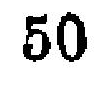50
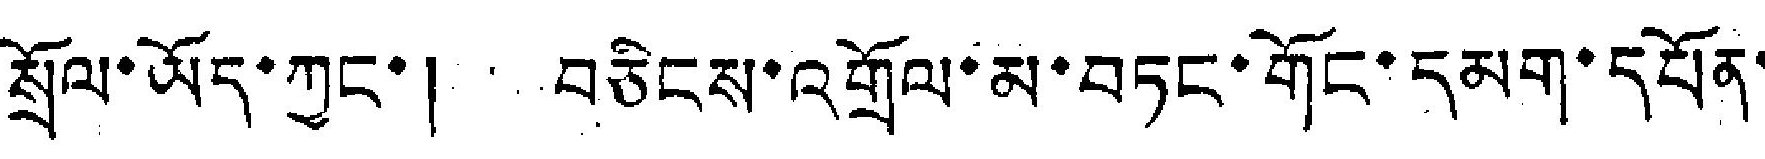སྲོལ་ཡོད་ཀྱང་། བཅིངས་འགྲོལ་མ་བཏང་གོང་དམག་དཔོན་
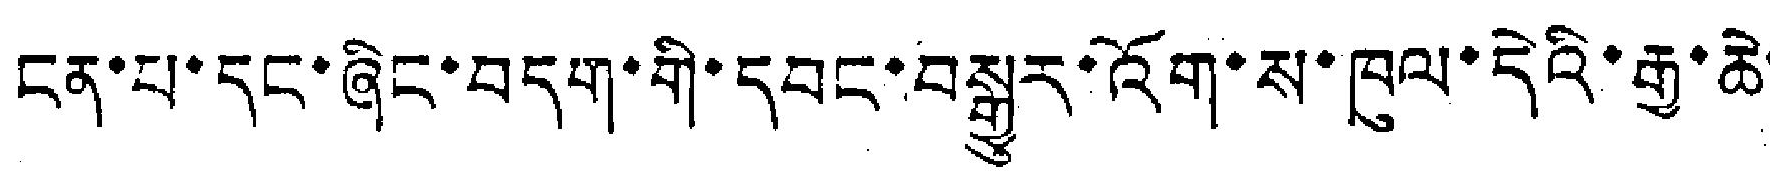ངན་པ་དང་ཞིང་བདག་གི་དབང་བསྒྱུར་འོག་ས་ཁུལ་དེའི་རྒྱ་ཆེ་
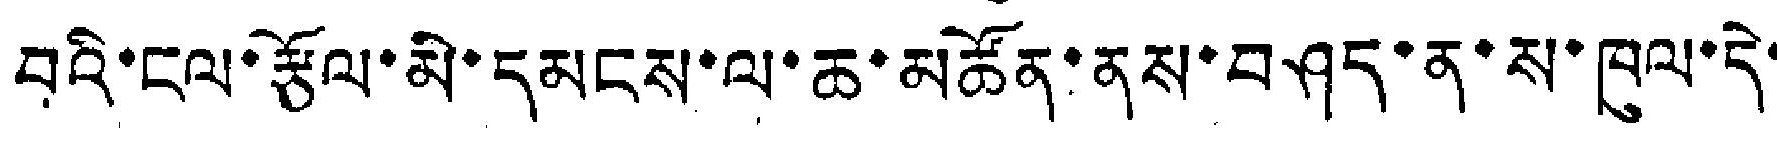བའི་ངལ་རྩོལ་མི་དམངས་ལ་ཆ་མཚོན་ནས་བཤད་ན་ས་ཁུལ་དེ་
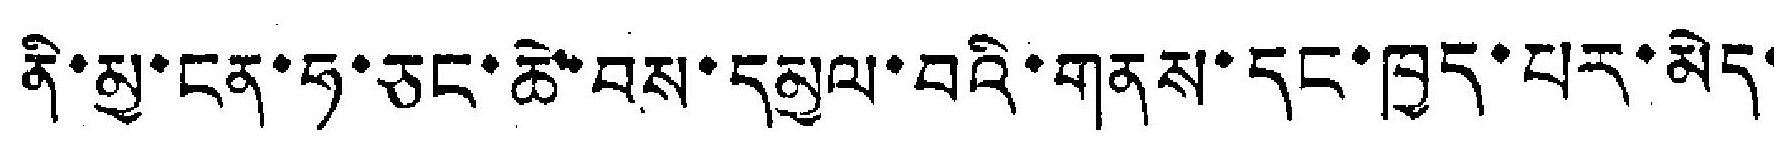ནི་མྱ་ངན་ཧ་ཅང་ཆེ་བས་དམྱལ་བའི་གནས་དང་ཁྱད་པར་མེད་
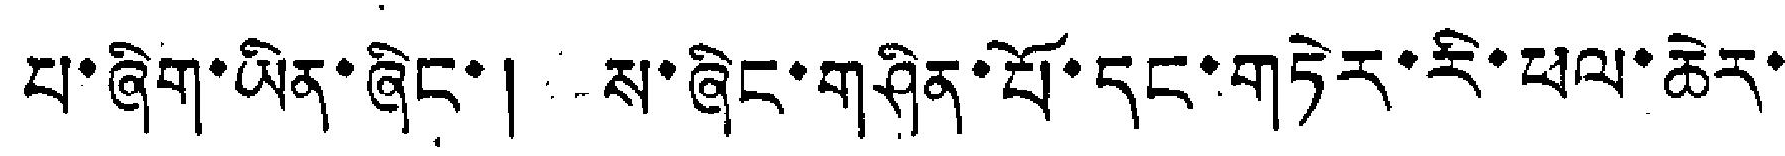པ་ཞིག་ཡིན་ཞིང་། ས་ཞིང་གཤིན་པོ་དང་གཏེར་རི་ཕལ་ཆེར་
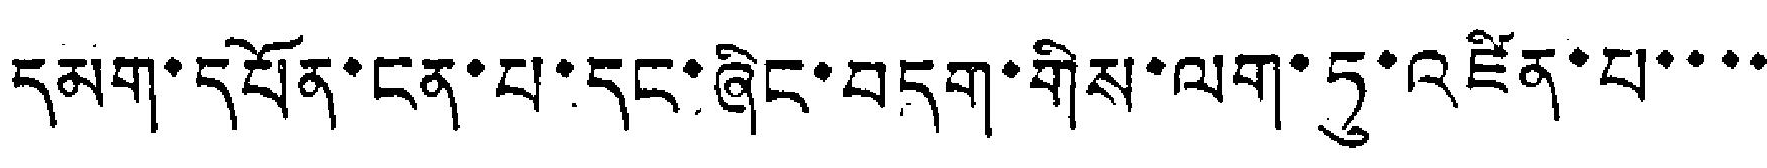དམག་དཔོན་ངན་པ་དང་ཞིང་བདག་གིས་ལག་ཏུ་འཛིན་པ་་་་
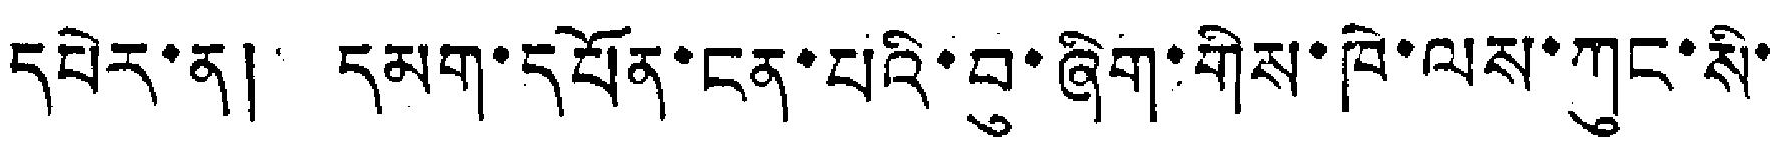དཔེར་ན། དམག་དཔོན་ངན་པའི་བུ་ཞིག་གིས་ཁེ་ལས་ཀུང་སི་
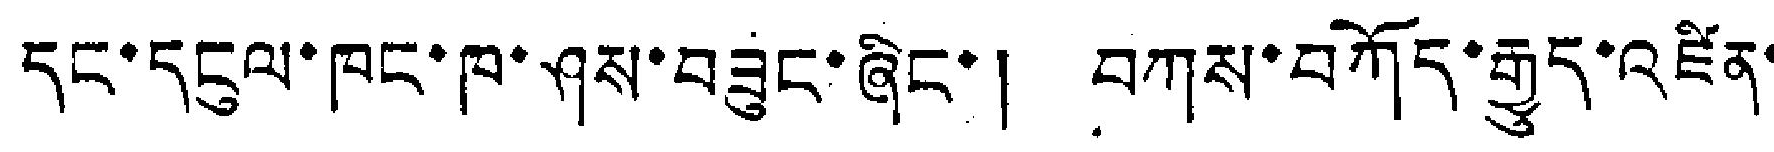དང་དངུལ་ཁང་ཁ་ཤས་བཟུང་ཞིང་། བཀས་བཀོད་རྒྱུད་འཛིན་
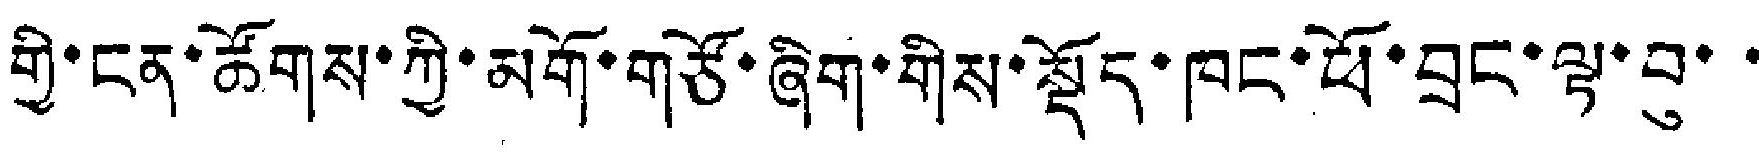གྱི་ངན་ཚོགས་ཀྱི་མགོ་གཙོ་ཞིག་གིས་སྡོད་ཁང་ཕོ་བྲང་ལྟ་བུ་་
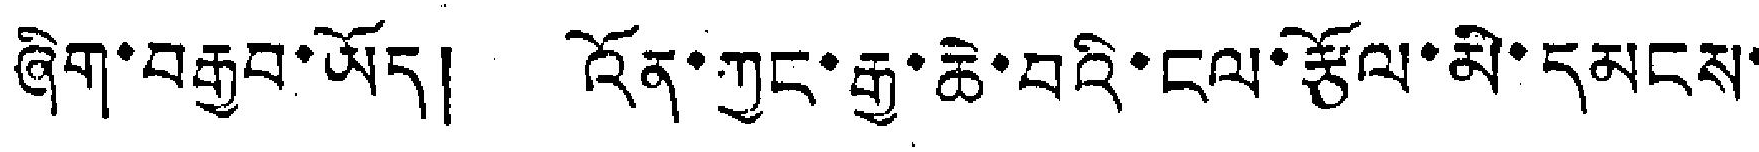ཞིག་བརྒྱབ་ཡོད། འོན་ཀྱང་རྒྱ་ཆེ་བའི་ངལ་རྩོལ་མི་དམངས་
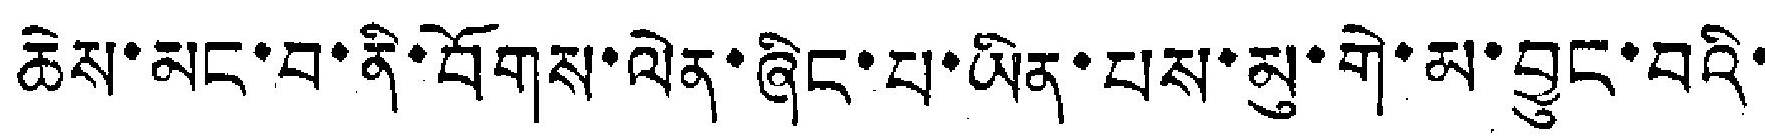ཆེས་མང་བ་ནི་བོགས་ལེན་ཞིང་པ་ཡིན་པས་མུ་གེ་མ་བྱུང་བའི་
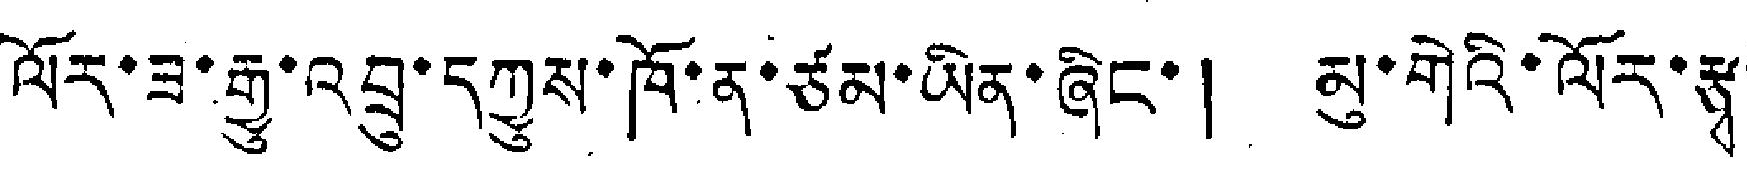ལོར་ཟ་རྒྱུ་འབྲུ་དཀྱུས་ཁོ་ན་ཙམ་ཡིན་ཞིང་། མུ་གེའི་ལོར་རྩྭ་
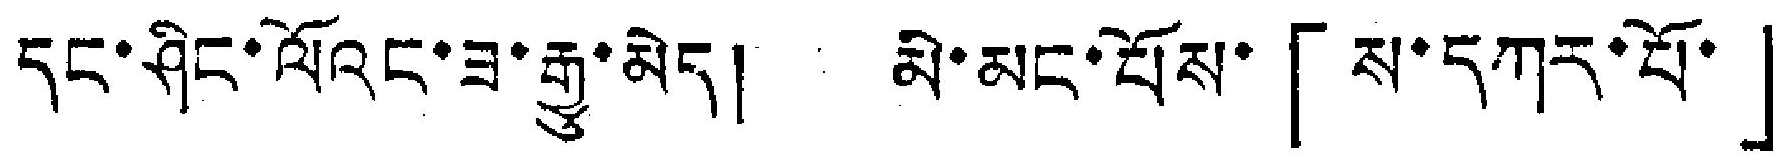དང་ཤིང་ལོའང་ཟ་རྒྱུ་མེད། མི་མང་པོས་「ས་དཀར་པོ་」
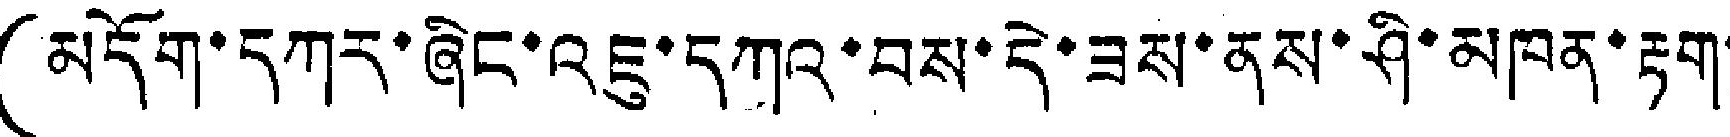(མདོག་དཀར་ཞིང་འཇུ་དཀའ་བས་དེ་ཟས་ནས་ཤི་མཁན་རྟག་
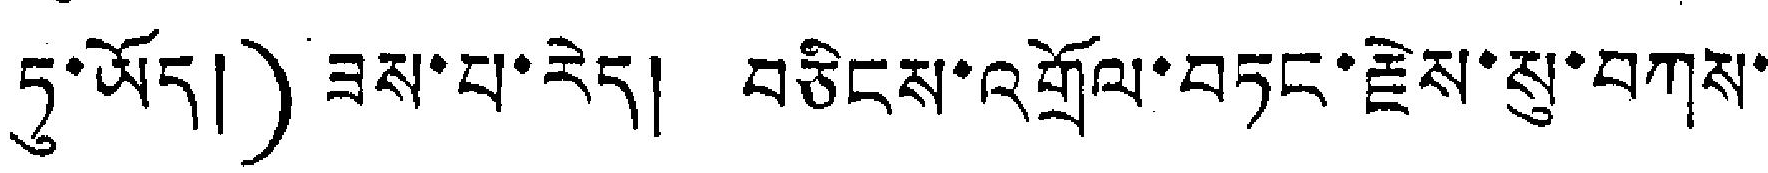ཏུ་ཡོད།) ཟས་པ་རེད། བཅིངས་འགྲོལ་གཏང་རྗེས་སུ་བཀས་
